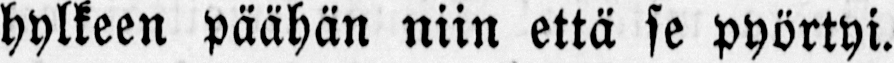hylkeen päähän niin että se pyörtyi.
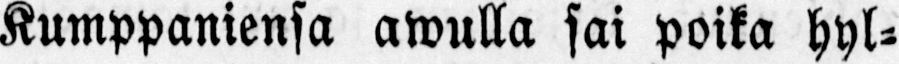Kumppaniensa awulla sai poika hyl-
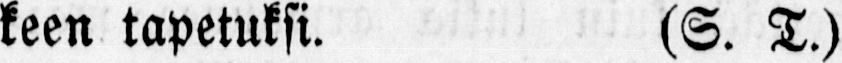keen tapetuksi. (S. T.)
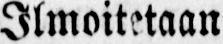Ilmoitetaan
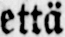että
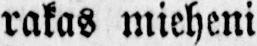rakas mieheni
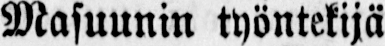Masuunin työntekijä
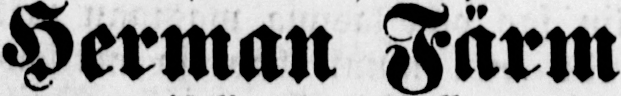Herman Färm
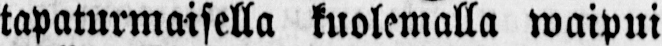tapaturmaisella kuolemalla waipui
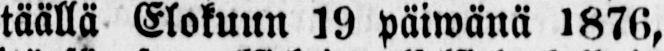täällä Elokuun 19 päiwänä 1876,
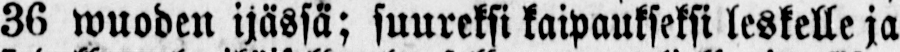36 wuoden ijässä; suureksi kaipaukseksi leskelle ja
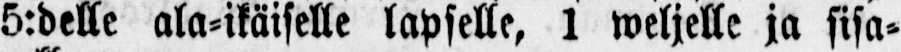5:delle ala-ikäiselle lapselle, 1 weljelle ja sisa-
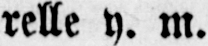relle y. m.
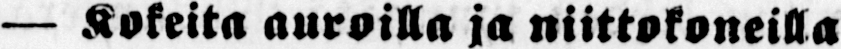— Kokeita auroilla ja niittokoneilla
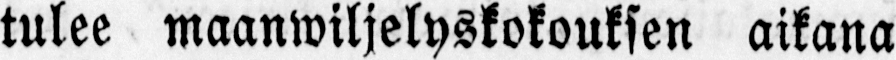tulee maanwiljelyskokouksen aikana
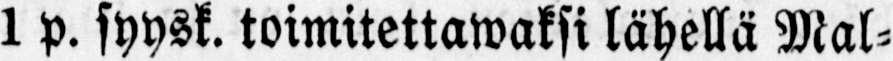1 p. syysk. toimitettawaksi lähellä Mal-
